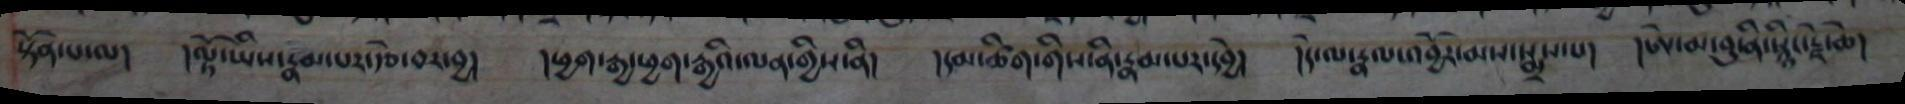སྟོན་པ་ལ། །ལྟོ་ཡིས་རྣམ་པར་རྩེ་བར་བྱ། །ཕྱག་རྒྱ་ཕྱག་རྒྱའི་ལན་གྱིས་ནི། །དམ་ཚིག་གིས་ནི་རྣམ་པར་དབྱེ། །དེ་ལ་རྣལ་འབྱོར་མས་སྨྲས་པ། །ཨེ་མ་བུ་ནི་སྙིང་རྗེ་ཆེ།
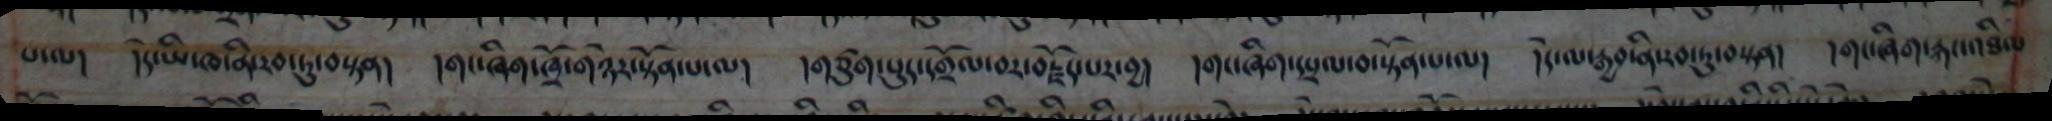པ་ལ། །དེ་ཡི་ཁ་ནི་རབ་ཏུ་བསྟན། །གང་ཞིག་ཁྲོ་གཉེར་སྟོན་པ་ལ། །གཙུག་པུད་དགྲོལ་བར་བརྗོད་པར་བྱ། །གང་ཞིག་དཔྲལ་བ་སྟོན་པ་ལ། །དེ་ལ་རྒྱབ་ནི་རབ་ཏུ་བསྟན། །གང་ཞིག་རྐང་འཐིལ
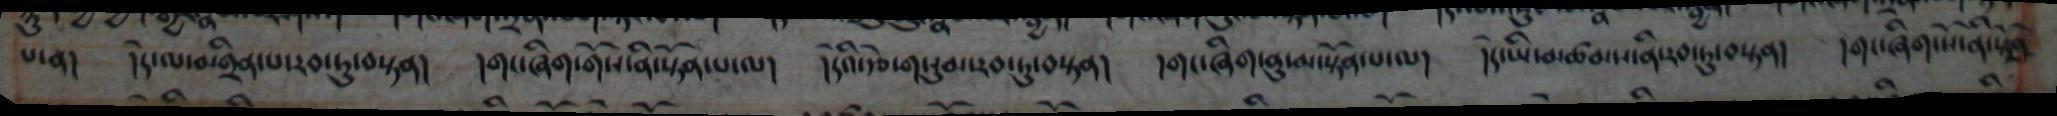པ་ན། །དེ་ལ་མགྲིན་པ་རབ་ཏུ་བསྟན། །གང་ཞིག་གོས་ནི་སྟོན་པ་ལ། །དེའི་རྩེ་གསུམ་རབ་ཏུ་བསྟན། །གང་ཞིག་ནུ་མ་སྟོན་པ་ལ། །དེ་ཡི་མཚམས་ནི་རབ་ཏུ་བསྟན། །གང་ཞིག་སོ་ནི་སྟོན
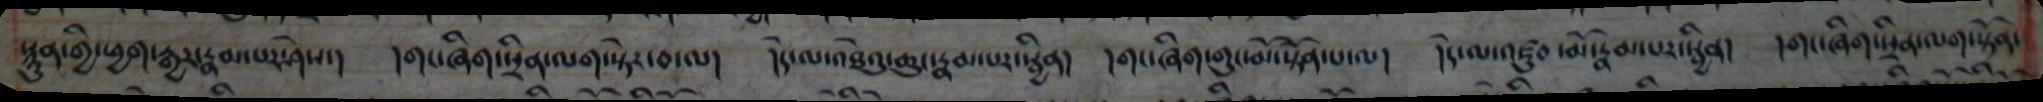སྙུན་གྱི་ཕྱག་རྒྱར་རྣམ་པར་ཤེས་། །གང་ཞིག་སྲིན་ལག་སྟེར་བ་ལ། །དེ་ལ་འཐེའུ་ཆུང་རྣམ་པར་སྦྱིན། །གང་ཞིག་གུང་མོ་སྟོན་པ་ལ། །དེ་ལ་འཛུབ་མོ་རྣམ་པར་སྦྱིན། །གང་ཞིག་སྲིན་ལག་སྟོན་
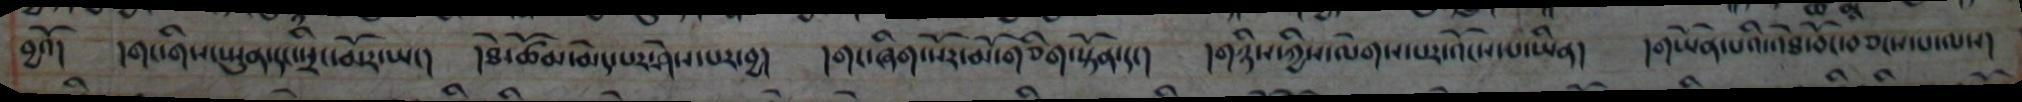བྱའོ། །གང་གིས་སྤུན་དང་སྲིང་མོར་ཡང། །ཐེ་ཚོམ་མེད་པར་ཤེས་པར་བྱ། །གང་ཞིག་སོར་མོ་གཅིག་སྟོན་དང། །གཉིས་ཀྱིས་ལེགས་པར་འོངས་པ་ཡིན། །གཡོན་པའི་འཐེ་བོང་བཅངས་པ་ལས།
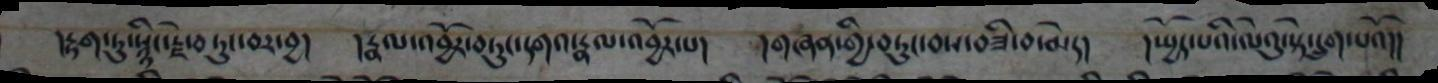།རྟག་ཏུ་སྙིང་རྗེ་བཏུང་བར་བྱ། །རྣལ་འབྱོར་བཏུང་དགའ་རྣལ་འབྱོར་པ། །གཞན་གྱི་བཏུང་བས་བཟི་བ་མེད། །སྤྱོད་པའི་ལེའུ་སྟེ་དྲུག་པའོ།།
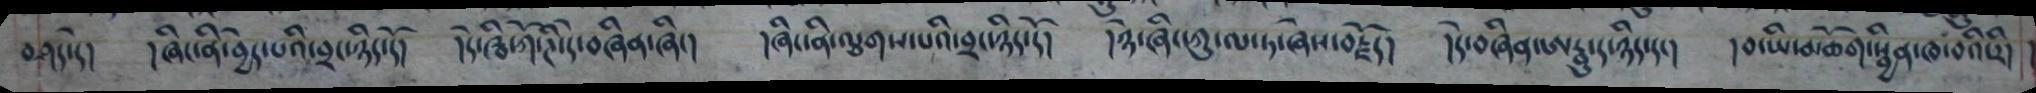བཤད་དེ། །ཞིང་ནི་བྱེད་པི་བྲང་ཉིད་དོ། །དེ་ཝི་ཀོ་ཊི་དེ་བཞིན་ཞིང། །ཞིང་ནི་ལྕགས་པའི་བྲང་ཉིད་དོ། །ཉེ་ཞིང་ཀུ་ལ་ཏ་ཞེས་བརྗོད། །དེ་བཞིན་ཨརྦུ་ད་ཉིད་དང། །བ་ཡི་མཆོག་སྦྱིན་ཁ་བའི་རི།
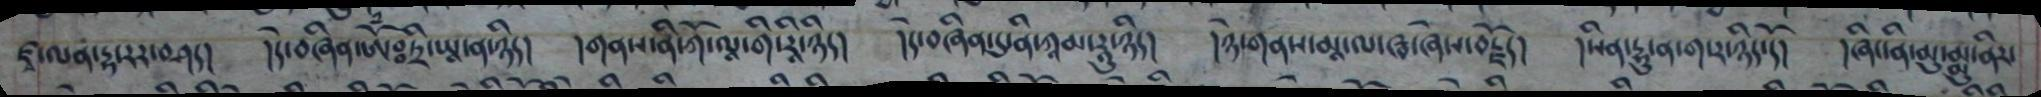ཛྭ་ལན་དྷ་རར་བཤད། །དེ་བཞིན་ཨོཾཿ ཏྲི་ཡཱ་ན་ཉིད། །གནས་ནི་ཀོ་ལཱ་གི་རཱི་ཉིད། །དེ་བཞིན་དུ་ནི་ཀཱམ་རཱུ་ཉིད། །ཉེ་གནས་མཱ་ལ་ཝ་ཞེས་བརྗོད། །སིན་དྷུ་ན་ག་ར་ཉིད་དོ། །ཞིང་ནི་མུ་མྨུ་ནིར་
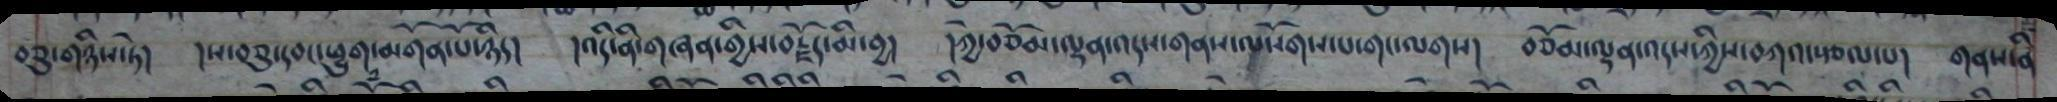བཅུ་གཉིས་ཏེ། །ས་བཅུ་དབང་ཕྱུག་མགོན་པོ་ཉིད། །འདི་ནི་གཞན་གྱིས་བརྗོད་མི་བྱ། །ཀྱེ་བཅོམ་ལྡན་འདས་གནས་ལསོགས་པ་གང་ལགས། བཅོམ་ལྡན་འདས་ཀྱིས་བཀའ་སྩལ་པ། གནས་ནི
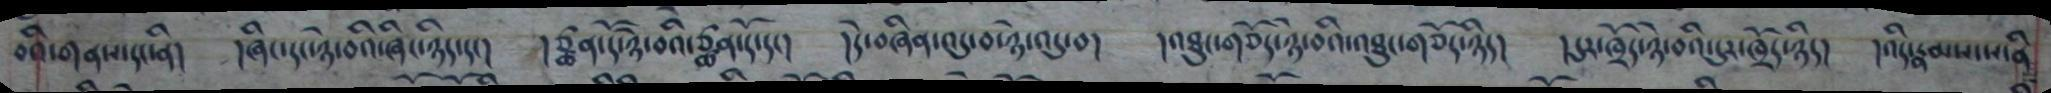བའི་གནས་དང་ནི། །ཞིང་དང་ཉེ་བའི་ཞིང་ཉིད་དང་། །ཙྪན་དོ་ཉེ་བའི་ཙྪན་དོ་དང་། །དེ་བཞིན་འདུ་བ་ཉེ་འདུ་བ། །འཐུང་གཅོད་ཉེ་བའི་འཐུང་གཅོད་ཉིད། །དུར་ཁྲོད་ཉེ་བའི་དུར་ཁྲོད་ཉིད། །འདི་རྣམས་ས་ནི
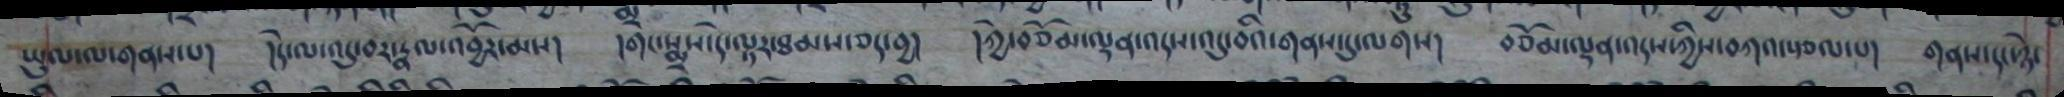ཡུལ་ལ་གནས་པ།།དེ་ལ་འདུ་བར་རྣལ་འབྱོར་མས། །གང་སྨྲས་དེ་ལྟར་ཐམས་ཅད་བྱ། །ཀྱེ་བཅོམ་ལྡན་འདས་འདུ་བའི་གནས་དུ་ལགས། བཅོམ་ལྡན་འདས་ཀྱིས་བཀའ་རྩལ་པ། གནས་དང་ཉེ་
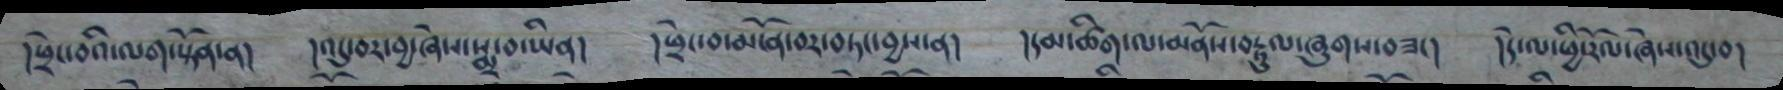།ཕྲེང་བའི་ལག་སྟོན་ན། །འདུ་བར་བྱ་ཞེས་སྨྲ་བ་ཡིན། །ཕྲེང་བ་མངོན་བར་བཏང་བྱས་ན། །དམ་ཚིག་ལ་མནོས་བརྟུལ་ཞུགས་བཟང་། །དེ་ལ་ཕྱི་རོལ་ཞེས་འདུ་བ།
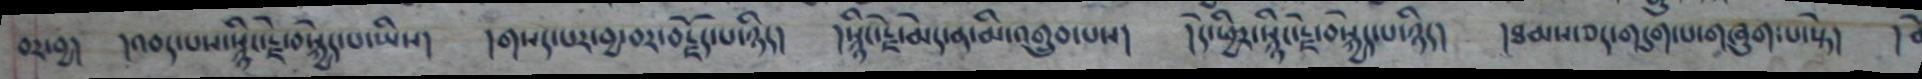བར་བྱ། །འབད་པས་སྙིང་རྗེ་བསྐྱེད་པ་ཡིས། །གསད་པར་བྱ་བར་བརྗོད་པ་ཉིད། །སྙིང་རྗེ་མེད་ན་མི་འགྲུབ་པས། །དེ་ཕྱིར་སྙིང་རྗེ་བསྐྱེད་པ་ཉིད། །ཐམས་ཅད་གདུག་པ་གཞུག་པ་སྟེ། །
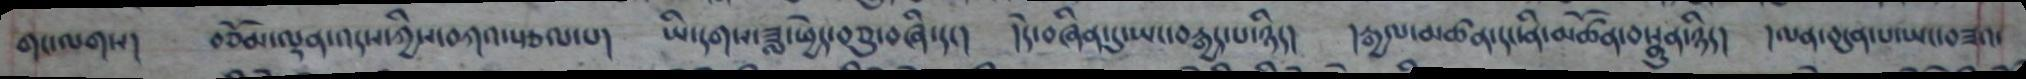གང་ལགས། བཅོམ་ལྡན་འདས་ཀྱིས་བཀའ་སྩལ་པ། ཡི་དགས་ཟླ་ཕྱེད་བཅུ་བཞི་དང། །དེ་བཞིན་དུ་ཡང་བརྒྱད་པ་ཉིད། །རྒྱལ་མཚན་དང་ནི་མཚོན་བསྣུན་ཉིད། །ལན་བདུན་པ་ཡང་བཟའ་
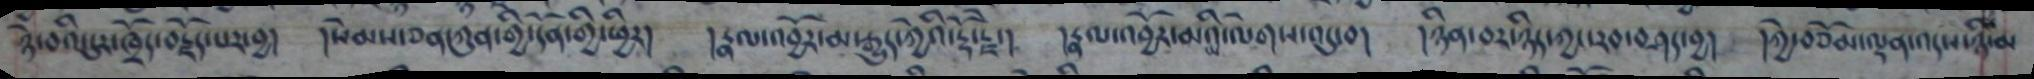ཉེ་བའི་དུར་ཁྲོད་བརྗོད་པར་བྱ། །སེམས་ཅན་ཀུན་གྱི་དོན་གྱི་ཕྱིར། །རྣལ་འབྱོར་མ་རྒྱུད་ཀྱེའི་རྡོ་རྗེ་། །རྣལ་འབྱོར་མའི་ལེགས་འདུ་བ། །ཉིན་བར་ཉིད་ཀྱང་རབ་བཤད་བྱ། །ཀྱེ་བཅོམ་ལྡན་འདས་ཉི་མ
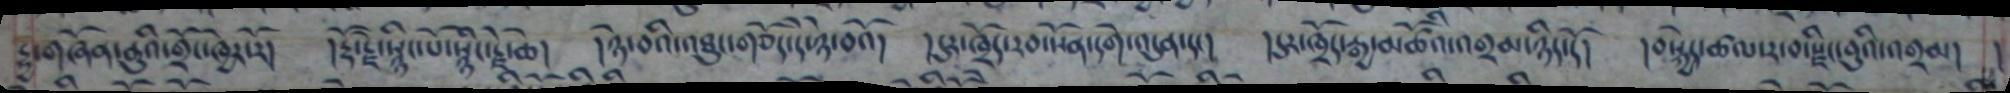དྷྱ་གཞོན་ནུའི་གྲོང་ཁྱེར་རོ། །རྡོ་རྗེ་སྙིང་པོ་སྙིང་རྗེ་ཆེ། །ཉེ་བའི་འཐུང་གཅོད་དེ་ཉེ་བའོ། །དུར་ཁྲོད་རབ་སོན་དགེ་འདུན་དང་། །དུར་ཁྲོད་རྒྱ་མཚོའི་འགྲམ་ཉིད་དོ། །བསྐྱེད་ཚལ་ར་བ་སྫིང་བུའི་འགྲམ། །
